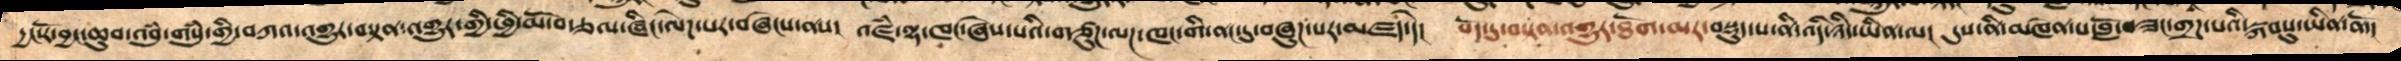དྱང་རོ་བྱང་ཆུབ་འབུཾ་གསུཾ་གྱི་བཀའ་འགྱུར་དང་བསྟན་འགྱུར་གྱི་ཕྱི་མོ་བརྩལ་ཞིང་ལེཌ་པར་བཞེངས་ནས།   འཛཾ་ལྷ་ཁང་ཞེས་པའི་གཙུཌ་ལཌ་ཁང་གི་ནང་དུ་བཞུཌ་པར་མཛད་དེ།  བོད་དུ་བསྟན་འགྱུར་ཐོག་མར་བསྡུད་པ་ནི་འདི་ཉིད་ཡིན་ལ།  དུས་ནི་མཁེན་པ་བློ་བཟང་གྲཌ་པའི་སྐབསུ་ཡིན་ནོ་།
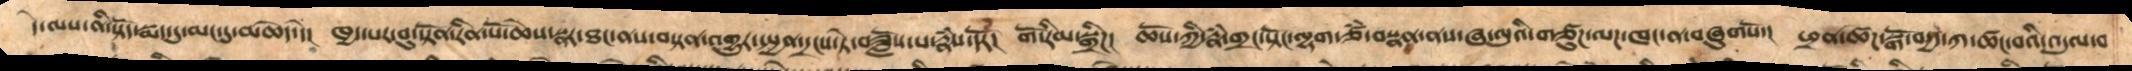དེ་ལས་ནི་སྟོད་སྨད་དུ་མང་དུ་མཆེད་དེ།  ཁྱད་པར་བུ་སྟོན་རིན་པོ་ཆེས་སྣར་ཐང་ནས་བསྟན་འགྱུར་སྤྱན་དྲངས་ཏེ་བཟློས་པ་རྣཾས་དོར།  གོ་རིམ་སྒྲིཌ།  ཆོས་ཀྱི་རྣཾ་གྲང་སྟོང་ལྷག་ཙཾ་བསྣན་ནས་ཞ་ལུའི་གཙུཌ་ལཌ་ཁང་ན་བཞུགསོ་།  ཕྲན་ཚཌ་སྒོ་བདྱད་ཀ་ཚང་བའི་འདུལ་བ་
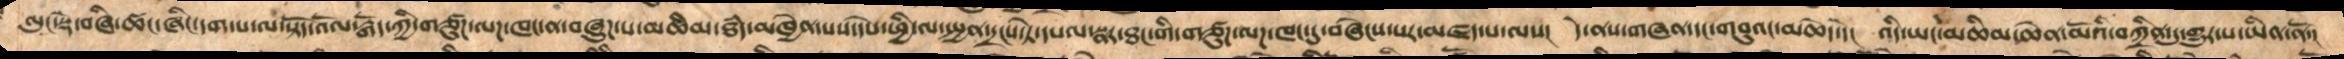ལུང་སྡེ་བཞི་ཚང་ཞིང་དག་པ་ལ་སྟོད་འོལ་རྒོད་ཀྱི་གཙུཌ་ལཌ་ཁང་ན་བཞུཌ་པ་མཆིམ་ཐཾད་མཁྱེན་པས་དཔེ་ཕྱི་ལ་སྤྱན་དྲངས་ཏེ་དཔལ་སྣར་ཐང་གི་གཙུཌ་ལཌ་ཁང་དུ་བཞེངས་པར་མཛད་པ་ལས།  དེ་ནས་གཞན་དང་གབུའང་མཆེད་དེ།  འདི་ཡངཕ་མཆིམ་ཆེན་མོའི་བཀྲིན་དུ་གྱུར་པ་ཡིན་ནོ་།
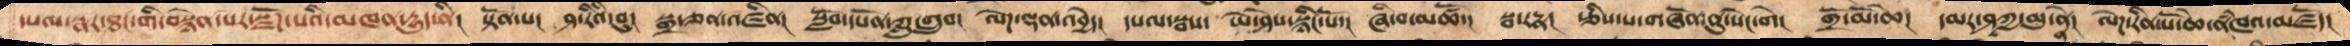དཔལ་སྣར་ཐང་གི་བསྙེན་པར་སྫོགས་པའི་མཁན་དྱུད་ནི།  སྟོན་པ།  ཤ་རིའི་བུ།  སྒྲ་གཅན་འཛིན།  སློབ་དཔོན་ཀླུ་གྲུབ།  ལེཌ་ལྡན་འབྱེད།  དཔལ་སྦས།  ཡེ་ཤེས་སྙིང་པོ།  ཞི་བ་མཚོ་།  སྦ་རཏྣ།  རྩིས་པ་གཞོན་ནུ་སེང་གེ།  གྲོ་མོ་ཆེ།  དམར་ཤཱཀྱ་མུ་ནྣེ།  ལེཌ་རིན་པོ་ཆེ་་ནཾཁའ་མཛོད།
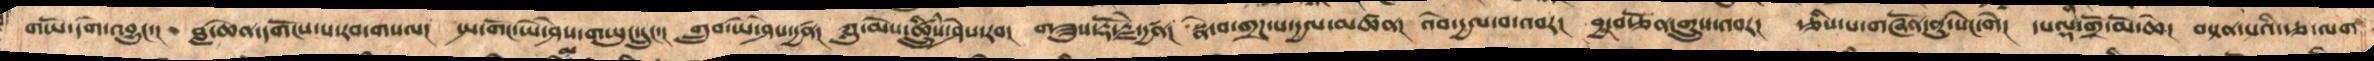གཡོ་དགེ་འབྱུང་།  བླ་ཆེན་དགོངས་པ་རབ་གསལ།  སྤ་གོང་ཡེ་ཤེས་གཡུང་དྲུང་།  གྲུབ་ཡེ་ཤེས་དྱཚན།  ཀླུ་མེས་ཚྲིུཾས་ཤེས་རབ།  གཟུས་རྡོ་རྗེ་དྱཚན།  སྣེ་བ་གྲཌ་པ་དྱལ་མཚན།  འབེ་དྱལ་བ་འབར།  བྱ་བརྩོན་གྲུས་འབར།  རྩིས་པ་གཞོན་ནུ་སེང་གེ། དཔལྡན་གྲོ་མོ་ཆེ།  བསྟན་པའི་རྩ་ལག་
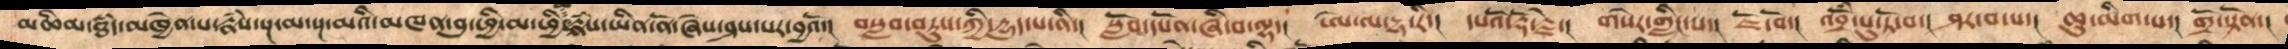མཆིམ་ཐཾད་མཁྱེན་པ་རྣཾས་སྔ་མ་སྔ་མའི་མཁན་བུ་ཕྱི་མ་ཕྱི་མ་རྣཾས་ཡིན་ནོ་ཞེས་ཤས་པར་བྱའོ་།  བསླབ་བཏུས་ཀྱི་དྱུད་པ་ནི་།  སློབ་དཔོན་ཞི་བ་ལྷ་།  ཨེ་མ་དྷ་རི་།  དཔའོ་རྡོ་རྗེ་།  གསེར་གླིང་པ་།  ཇོ་བོ་།  འབྲོཾ་པུ་ཏོ་བ་།  ཤར་བ་པ་།  ཆུ་མིག་པ་།  གྲོ་སྟོན་།
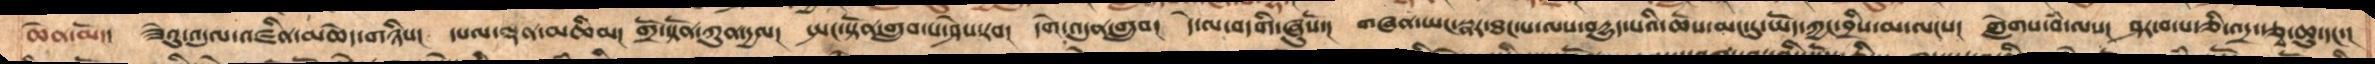ཆེན་མོ་།  ཟེའུ་འདུལ་འཛིན་མཆེད་གཉིས།  དཔལ་ལྡན་མཆིམ།  གྲོ་སྟོན་ཀུན་དྱལ།  སྤང་སྟོན་གྲུབ་པ་ཤེས་རབ།  དགེ་འདུན་གྲུབ།  དེ་ལ་བདགི་ཞུསོ།  གཞན་ཡང་སྣར་ཐང་པ་ལས་བདྱུད་པའི་ཆོས་མང་དུ་ཡོད་ཀྱང་བྲིས་མ་ལངས།  གླེགས་བཾ་ལས།  ཤར་བ་པ་ཅི་འདྲ་རྩྭ་ཆུ་དང་།
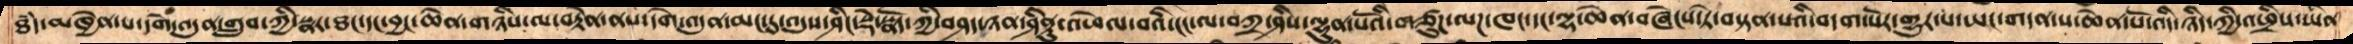ཐཾད་མཁྱེན་པ་དགེ་འདུན་གྲུབ་ཀྱི་སྣར་ཐང་དང་བྱང་ཆེན་གཉིས་ལ་བརྟེན་ནས་དགེ་འདུན་མང་དུ་འདུས་ཤིང་སྡེ་སྣོད་ཀྱི་བཤད་ཉན་ཤིནྟུ་འཕེལ་བའི་ངང་ནས་བཀྲ་ཤིས་ལྷུན་པོའི་གཙུཌ་ལཌ་ཁང་དང་ལྷ་ཆེན་བཞེངས་ཏེ་བསྟན་པའི་བདག་པོར་གྱུར་པ་ཡང་གདན་ས་ཆེན་པོ་འདི་ཉིད་ཀྱི་འཕྲིས་ཡིན
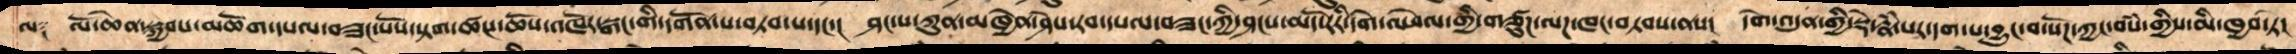ལ༑  ལོ་ཆེན་སྐྱབས་མཆོག་དཔལ་བཟང་པོས་སྟག་ཚང་ཆོས་འཁོར་སྒང་གི་དགོན་པ་བཏབ་པ་དང་།  ཤང་པ་ཀུན་མཁྱེན་ཤེས་རབ་དཔལ་བཟང་ཀྱི་ཤངས་མདོ་རརི་དགེ་འཕེལ་གྱི་གཙུཌ་ལཌ་ཁང་བཏབས་ནས།   དགེ་འདུན་གྱི་སྡེ་རྣཾ་པར་དག་པ་བྱུང་བ་སོཌ་ཀྱང་བསཾ་གྱིས་མི་ཁྱབ་ཏེ།
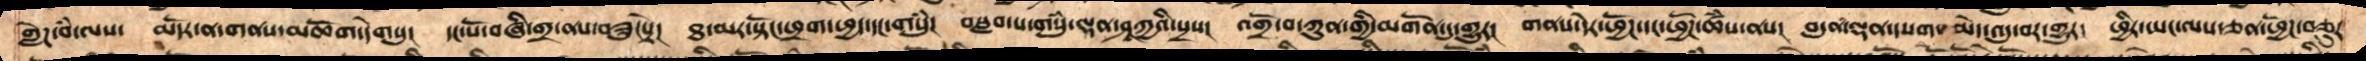གླེཌ་བཾ་ལས།  མདོར་ན་གནས་མཆོག་དེགསུ།  དང་པོ་བཞི་གྲ་ནས་བཟུངསྟེ།  ཐ་མར་སྟོང་ཕྲག་ཕྱེད་དང་གསུཾ།   བསླབ་པ་གསུཾ་ལྡན་ཤཱཀྱའི་སྲས།  འགྲོ་བ་ཀུན་གྱི་མགོན་དུ་འགྱུར།  གནས་དེར་ཕྱོཌ་དང་ཕྱོཌ་ཚཾས་ནས།  བདུན་ལྡན་དཔག་མེད་འདུ་བར་གྱུར།  ཕྱིར་ཡང་ལས་ཅན་ཕྱོཌ་བཅུར་
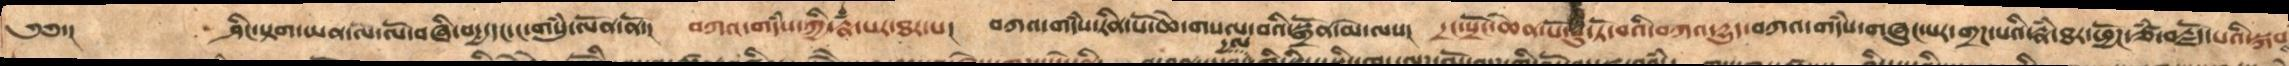༄༅་།   ཤིང་སྟག་ཡན་ལེ་ལོ་བཞི་བདྱ་དང་ང་གསུཾ་ལོན་ནོ་།  བཀའ་གདཾས་ཀྱི་རྣཾ་པར་ཐཪ་པ།  བཀའ་གདཾས་རིན་པོ་ཆེ་གསལ་བའི་སྒྲོན་མེ་ལས།  དྲང་སྲོང་ཆེན་པོ་པུ་ཏོ་བའི་བཀའ་དྱུད་བཀའ་གདཾས་གཞུང་པར་གྲཌ་པའི་རྣཾ་ཐར་ཕྱོཌ་ཙཾ་བརྗོད་པའི་སྐབ
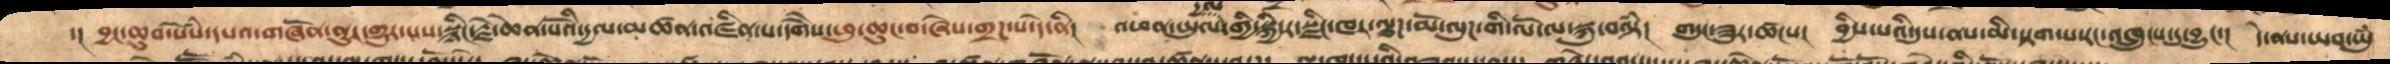་།  བྱང་ཆུབ་སེཾས་དཔའ་གཞོན་ནུར་གྱུར་པས་སྙིང་རྗེ་ཆེན་པོའི་དྱལ་མཚན་འཛིན་པ་དགཻསཕུ་ཆུང་བ་ཞེས་གྲཌ་པ་དེ་ནི།  འཕན་ཡུལ་གྱི་སྐྱི་ར་སྫིང་ཁར་ལྕཌ་མོ་ལུཌ་གི་ལོ་ལ་སྐུ་བལྟཾ།  གདུང་ཟུར་ཚངས།  བྱིས་པའི་དུས་ནས་མི་རྟག་པ་རང་འཁྲུངས་དུ་བྱུང་།  དེ་ནས་ཡབ་ཡུཾ
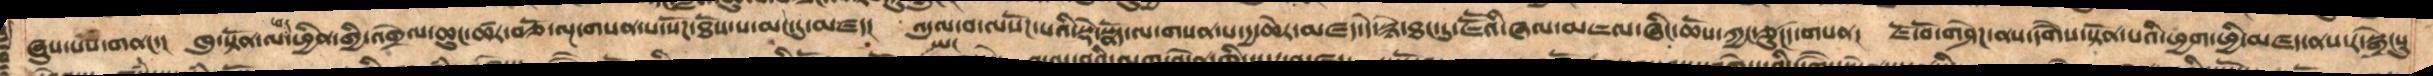ཞུས་པས་གནང་། ཁུ་སྟོན་ལ་ཕར་ཕྱིན་གྱི་འགྲེལ་ཆུང་ཚར་བཅོ་ལྔ་གསན་པ་སོཌ་ཐོས་པ་མང་དུ་མཛད། འདུལ་བ་ལསོཌ་པའི་སྡེ་སྣོད་ལ་གསན་པ་དྱ་ཆེར་མཛད་དེ་སྙེ་ཐང་དུ་ཇཽའི་ཞལ་མཇལ་ཞིང་ཆོས་ཀྱང་ཅུངཟད་གསན།  ཇོ་བོ་གཤེཌ་ནས་དགཻས་སྟོན་པའི་ཕྱག་ཕྱི་མཛད་ནས་ར་སྒྲེངསུ
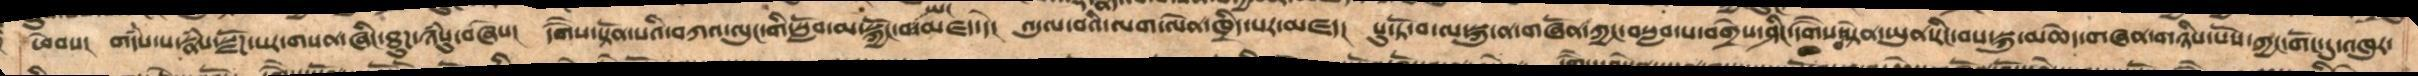ཕེབས། གདཾས་པ་རྣཾས་སྫོཌ་པར་གསན་ཞིང་ཐུཌ་ཉཾསུ་བཞེས།  དགཻས་སྟོན་པའི་བཀའ་ལུང་གི་སློབ་མ་སྐྱོང་བ་ཡང་མཛད་དེ།  འདུལ་བའི་ལག་ལེན་ཁྲིད་པར་མཛད།  པུ་ཏོ་བ་ལ་སྐུ་ན་གཞོན་ཀྱང་བསླབ་པ་བགྲེས་ཤིང་དགཻས་བསྟེན་ཡུན་རིང་བས་སྐུ་མཆེད་གཞན་གཉིས་པོས་ཀྱང་གོང་དུ་འཁུར་
